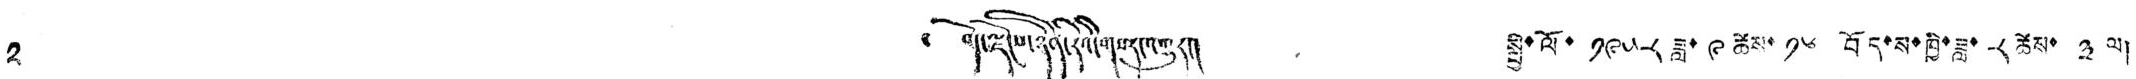༢ ༄ བོད་ལྗོངས་ཉིན་རེའི་གསར་འགྱུར། སྤྱི་ལོ་ ༡༩༥༨ ཟླ་ ༩ ཚེས་ ༡༦ བོད་ས་ཁྱི་ཟླ་ ༨ ཚེས་ ༣ ལ།
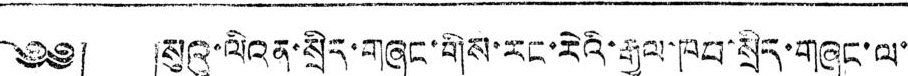༄༅། །སུའུ་ལིའན་སྲིད་གཞུང་གིས་རང་རེའི་རྒྱལ་ཁབ་སྲིད་གཞུང་ལ་
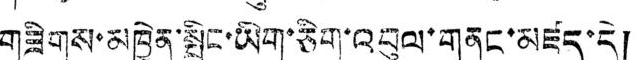གཟིགས་མཁྱེན་སྦྲིང་ཡིག་ཅིག་འབུལ་གནང་མཛད་དེ།
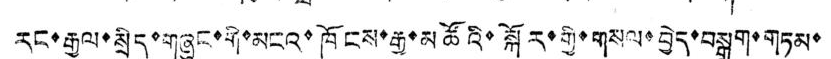རང་རྒྱལ་སྲིད་གཞུང་གི་མངའ་ཁོངས་རྒྱ་མཚོའི་སྐོར་གྱི་གསལ་བྱེད་བསྒྲག་གཏམ་
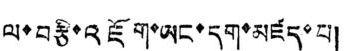ལ་བརྩི་འཇོག་ཡང་དག་མཛད་པ།
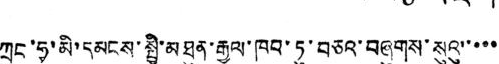ཀྲུང་ཧྭ་མི་དམངས་སྤྱི་མཐུན་རྒྱལ་ཁབ་ཏུ་བཅའ་བཞུགས་སུའུ་་་་་
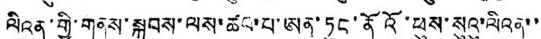ལིའན་གྱི་གནས་སྐབས་ལས་ཚབ་པ་ཨན་ཏུང་ནོའོ་ཕུས་སུའུ་ལིའན་་
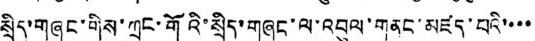སྲིད་གཞུང་གིས་ཀྲུང་གོའི་སྲིད་གཞུང་ལ་འབུལ་གནང་མཛད་པའི་་་་
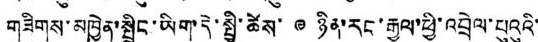གཟིགས་མཁྱེན་སྤྲིང་ཡིག་དེ་སྤྱི་ཚེས་ ༩ ཉིན་རང་རྒྱལ་ཕྱི་འབྲེལ་པུའུའི་
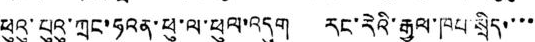ཕུའུ་པུའུ་ཀྲང་ཧའན་ཕུ་ལ་ཕུལ་འདུག རང་རེའི་རྒྱལ་ཁབ་སྲིད་་་་
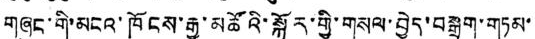གཞུང་གི་མངའ་ཁོངས་རྒྱ་མཚོའི་སྐོར་གྱི་གསལ་བྱེད་བསྒྲག་གཏམ་
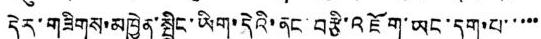དེར་གཟིགས་མཁྱེན་སྤྲིང་ཡིག་དེའི་ནང་བརྩི་འཇོག་ཡང་དག་པ་་་་་
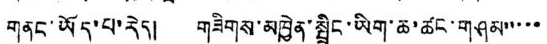གནང་ཡོད་པ་རེད། གཟིགས་མཁྱེན་སྤྲིང་ཡིག་ཆ་ཚང་གཤམ་་་་་
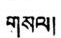གསལ།
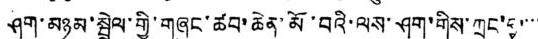ཤག་མཉམ་སྦྲེལ་གྱི་གཞུང་ཚབ་ཆེན་མོ་བའི་ལས་ཤག་གིས་ཀྲུང་ཧྭ་་་་
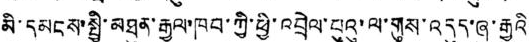མི་དམངས་སྤྱི་མཐུན་རྒྱལ་ཁབ་ཀྱི་ཕྱི་འབྲེལ་པུའུ་ལ་གུས་འདུད་ཞུ་རྒྱུའི་
